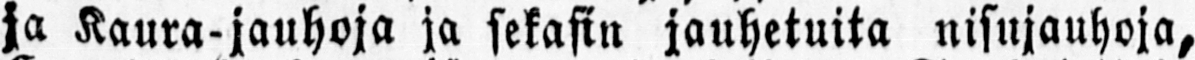ja Kaura-jauhoja ja sekasin jauhetuita nisujauhoja,
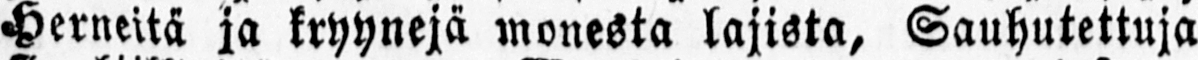Herneitä ja kryynejä monesta lajista. Sauhutettuja
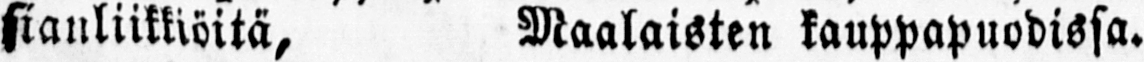sianliikkiöitä, Maalaisten kauppapuodissa.
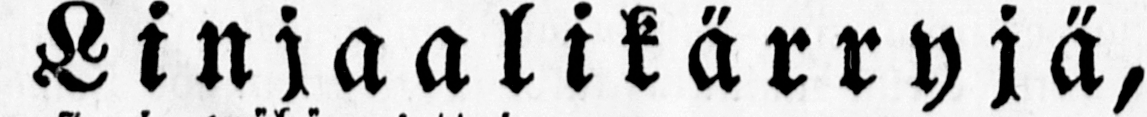Linjaalikärryjä ,
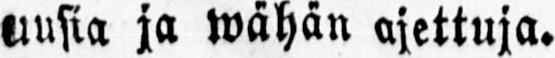uusia ja wähän ajettuja.
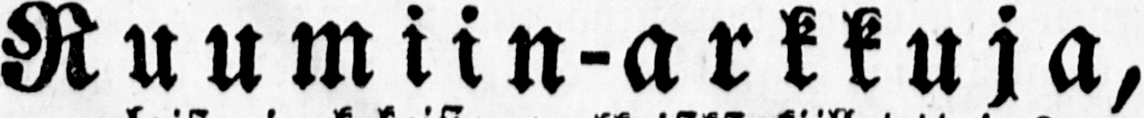Ruumiin-arkkuja,
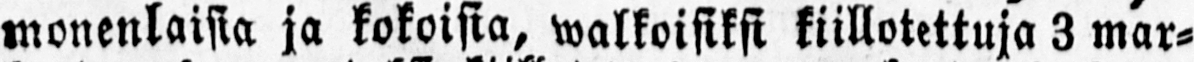monenlaisia ja kokoisia, walkoisiksi kiillotettuja 3 mar-
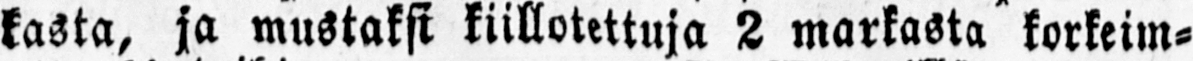kasta, ja mustaksi kiillotettuja 2 markasta korkeim-
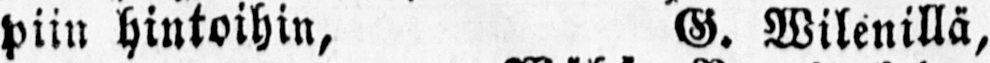piin hintoihin, G. Wilenillä,
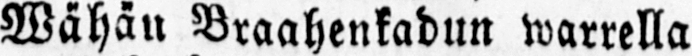Wähän Braahenkadun warrella
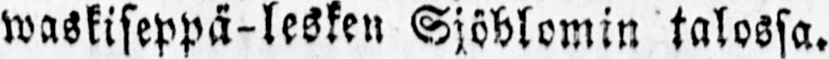waskiseppä-lesken Sjöblomin talossa.
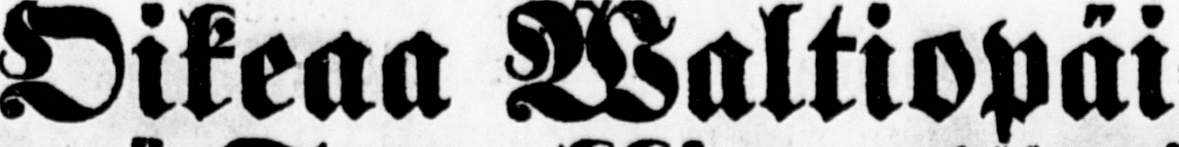Oikeaa Waltiopäi-
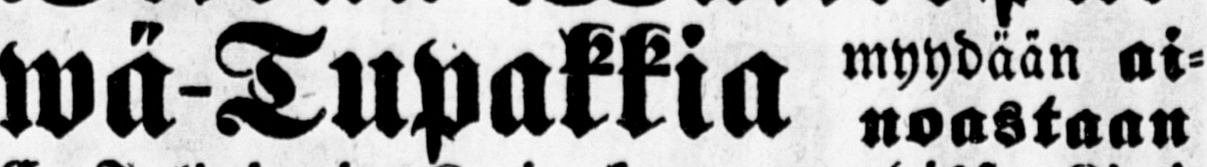wä Tupakkia myydään ai-
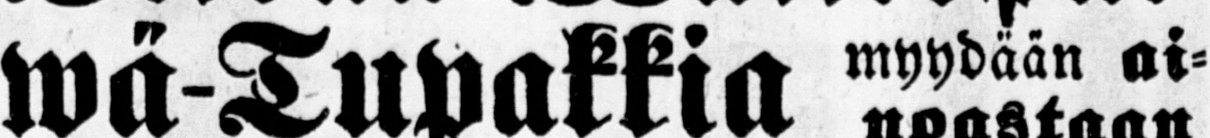noastaan
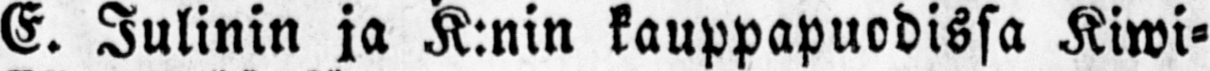E.Julinin ja K:nin kauppapuodissa Kiwi-
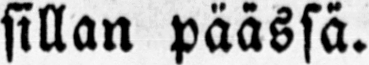sillan päässä.
